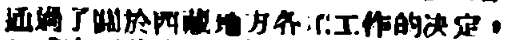通過了關於西藏地方各項工作的決定，
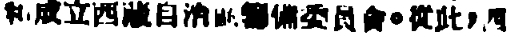和成立西藏自治區籌備委員會。從此，西
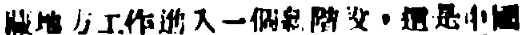藏地方工作進入一個新階段，這是中國
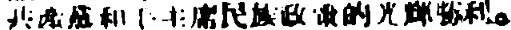共產黨和毛主席民族政策的光輝勝利。
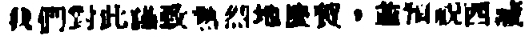我們對此謹致熱烈地慶賀，並預祝西藏
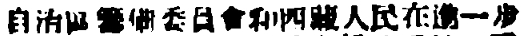自治區籌備委員會和西藏人民在進一步
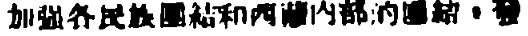加強各民族團結和西藏內部的團結，發
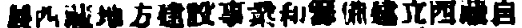展西藏地方建設事業和籌備建立西藏自
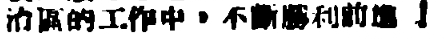治區的工作中，不斷勝利前進！
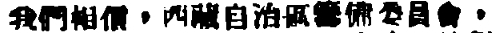我們相信，西藏自治區籌備委員會，
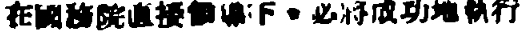在國務院直接領導下，必將成功地執行
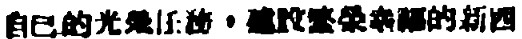自己的光榮任務，建設繁榮幸福的新西
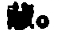藏。
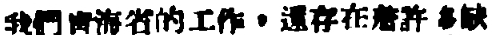我們靑海省的工作，還存在着許多缺
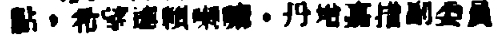點，希望達賴喇嘛・丹增嘉措副委員
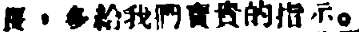長，多給我們寶貴的指示。
